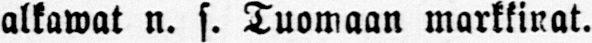alkawat n. s. Tuomaan markkinat.
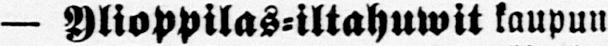— Ylioppilas-iltahuwit kaupun-
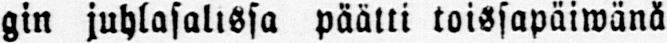gin juhlasalissa päätti toissapäiwänä
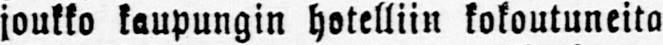joukko kaupungin hotelliin kokoutuneita
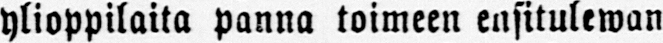ylioppilaita panna toimeen ensitulewan
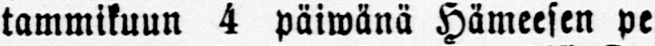tammikuun 4 päiwänä Hämeesen pe
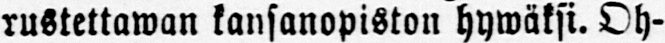rustettawan kansanopiston hywäksi. Oh-
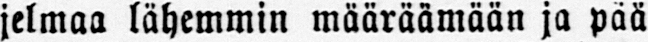jelmaa lähemmin määräämään ja pää
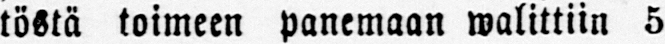töstä toimeen panemaan walittiin 5
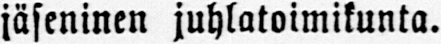jäseninen juhlatoimikunta.
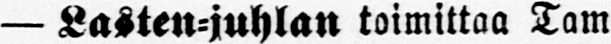— Lasten-juhlan toimittaa Tam-
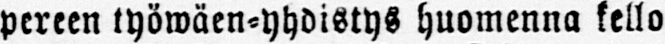pereen työwäen-yhdistys huomenna kello
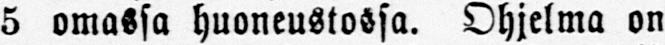5 omassa huoneustossa. Ohjelma on
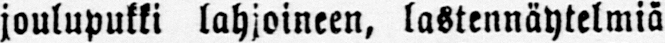joulupukki lahjoineen, lastennäytelmiä
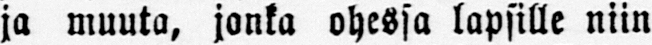ja muuta, jonka ohessa lapsille niin
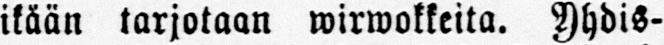ikään tarjotaan wirwokkeita. Yhdis-
